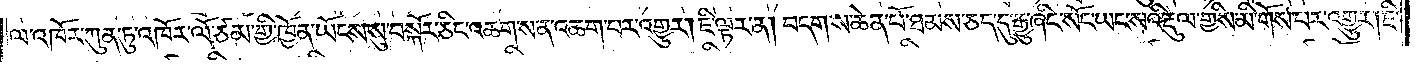ལ་འཁོར་ཀུན་ཏུ་འཁོར་ལོ་ཙམ་གྱི་ཁྱོན་ཡོངས་སུ་བསྐོར་ཅིང་འཆག་ས་ན་འཆག་པར་འགྱུར། ཇི་ལྟར་ན། བདག་ས་ཆེན་པོ་ཐམས་ཅད་དུ་རྒྱུ་ཞིང་སོང་ཡང་སའི་རྡུལ་གྱིས་མི་གོས་པར་འགྱུར། ཇི་
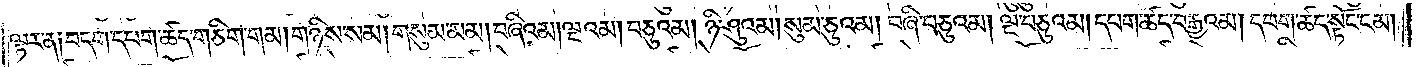ལྟར་ན༑ བདག་དཔག་ཚད་གཅིག་གམ། གཉིས་སམ། གསུམ་མམ། བཞིའམ། ལྔའམ། བཅུའམ། ཉི་ཤུའམ། སུམ་ཅུའམ། བཞི་བཅུའམ། ལྔ་བཅུའམ། དཔག་ཚད་བརྒྱའམ། དཔག་ཚད་སྟོང་ངམ།
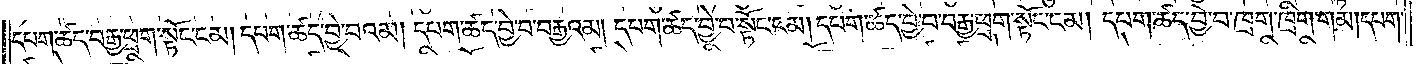དཔག་ཚད་བརྒྱ་ཕྲག་སྟོང་ངམ། དཔག་ཚད་བྱེ་བའམ། དཔག་ཚད་བྱེ་བ་བརྒྱའམ། དཔག་ཚད་བྱེ་བ་སྟོང་ངམ། དཔག་ཚད་བྱེ་བ་བརྒྱ་ཕྲག་སྟོང་ངམ། དཔག་ཚད་བྱེ་བ་ཁྲག་ཁྲིག་གམ། དཔག་
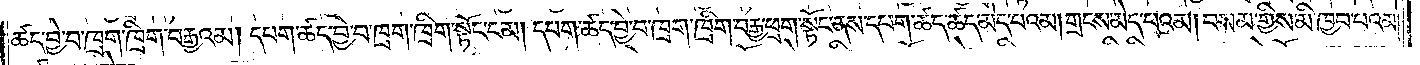ཚད་བྱེ་བ་ཁྲག་ཁྲིག་བརྒྱའམ། དཔག་ཚད་བྱེ་བ་ཁྲག་ཁྲིག་སྟོང་ངམ། དཔག་ཚད་བྱེ་བ་ཁྲག་ཁྲིག་བརྒྱ་ཕྲག་སྟོང་ནས་དཔག་ཚད་ཚད་མེད་པའམ། གྲངས་མེད་པའམ། བསམ་གྱིས་མི་ཁྱབ་པའམ།
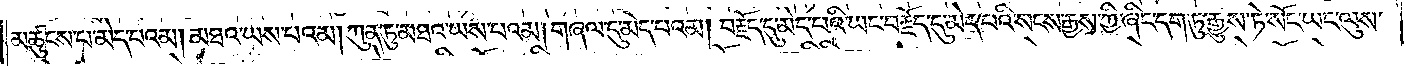མཚུངས་པ་མེད་པའམ། མཐའ་ཡས་པའམ། ཀུན་ཏུ་མཐའ་ཡས་པའམ། གཞལ་དུ་མེད་པའམ། བརྗོད་དུ་མེད་པའི་ཡང་བརྗོད་དུ་མེད་པའི་སངས་རྒྱས་ཀྱི་ཞིང་དག་ཏུ་རྒྱུས་ཏེ་སོང་ཡང་ལུས་
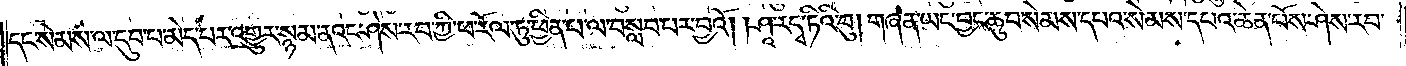དང་སེམས་ལ་དུབ་པ་མེད་པར་འགྱུར་སྙམ་ནའང་ཤེས་རབ་ཀྱི་ཕ་རོལ་ཏུ་ཕྱིན་པ་ལ་བསླབ་པར་བྱའོ། །ཤཱ་ར་དྭ་ཏིའི་བུ། གཞན་ཡང་བྱང་ཆུབ་སེམས་དཔའ་སེམས་དཔའ་ཆེན་པོས་ཤེས་རབ་
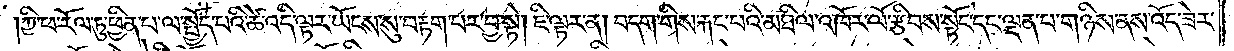ཀྱི་ཕ་རོལ་ཏུ་ཕྱིན་པ་ལ་སྤྱོད་པའི་ཚེ་འདི་ལྟར་ཡོངས་སུ་བརྟག་པར་བྱ་སྟེ། ཇི་ལྟར་ན། བདག་གིས་རྐང་པའི་མཐིལ་འཁོར་ལོ་རྩིབས་སྟོང་དང་ལྡན་པ་གཉིས་ནས་འོད་ཟེར་
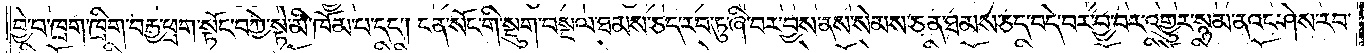བྱེ་བ་ཁྲག་ཁྲིག་བརྒྱ་ཕྲག་སྟོང་བཀྱེ་སྟེ་མི་ཁོམ་པ་དང༌། ངན་སོང་གི་སྡུག་བསྔལ་ཐམས་ཅད་རབ་ཏུ་ཞི་བར་བྱས་ནས་སེམས་ཅན་ཐམས་ཅད་བདེ་བར་བྱ་བར་འགྱུར་སྙམ་ནའང་ཤེས་རབ་
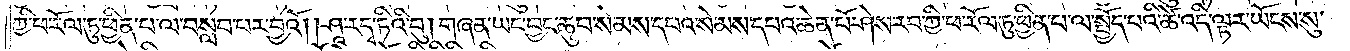ཀྱི་ཕ་རོལ་ཏུ་ཕྱིན་པ་ལ་བསླབ་པར་བྱའོ། །ཤཱ་ར་དྭ་ཏིའི་བུ། གཞན་ཡང་བྱང་ཆུབ་སེམས་དཔའ་སེམས་དཔའ་ཆེན་པོ་ཤེས་རབ་ཀྱི་ཕ་རོལ་ཏུ་ཕྱིན་པ་ལ་སྤྱོད་པའི་ཚེ་འདི་ལྟར་ཡོངས་སུ་
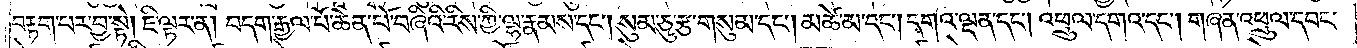བརྟག་པར་བྱ་སྟེ། ཇི་ལྟར་ན། བདག་རྒྱལ་པོ་ཆེན་པོ་བཞིའི་རིས་ཀྱི་ལྷ་རྣམས་དང༌། སུམ་ཅུ་རྩ་གསུམ་དང༌། མཚེ་མ་དང༌། དགའ་ལྡན་དང༌། འཕྲུལ་དགའ་དང༌། གཞན་འཕྲུལ་དབང་
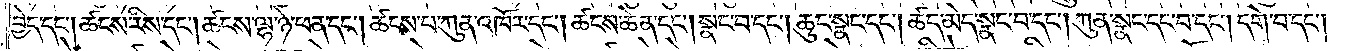བྱེད་དང༌། ཚངས་རིས་དང༌། ཚངས་ལྷ་ཉེ་ཕན་དང༌། ཚངས་པ་ཀུན་འཁོར་དང༌། ཚངས་ཆེན་དང༌། སྣང་བ་དང༌། ཆུང་སྣང་དང༌། ཚད་མེད་སྣང་བ་དང༌། ཀུན་སྣང་དང་བ་དང༌། དགེ་བ་དང༌།
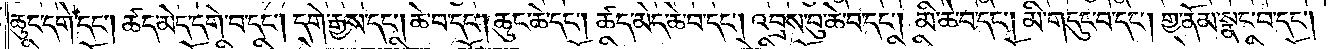ཆུང་དགེ་དང༌། ཚད་མེད་དགེ་བ་དང༌། དགེ་རྒྱས་དང༌། ཆེ་བ་དང༌། ཆུང་ཆེ་དང༌། ཚད་མེད་ཆེ་བ་དང༌། འབྲས་བུ་ཆེ་བ་དང༌། མི་ཆེ་བ་དང༌། མི་གདུང་བ་དང༌། གྱ་ནོམ་སྣང་བ་དང༌།
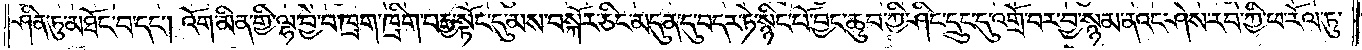ཤིན་ཏུ་མཐོང་བ་དང༌། འོག་མིན་གྱི་ལྷ་བྱེ་བ་ཁྲག་ཁྲིག་བརྒྱ་སྟོང་དུ་མས་བསྐོར་ཅིང་མདུན་དུ་བདར་ཏེ་སྙིང་པོ་བྱང་ཆུབ་ཀྱི་ཤིང་དྲུང་དུ་འགྲོ་བར་བྱ་སྙམ་ནའང་ཤེས་རབ་ཀྱི་ཕ་རོལ་ཏུ་
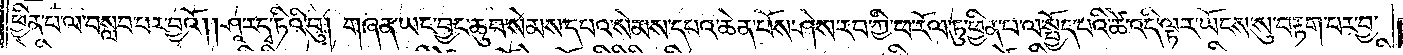ཕྱིན་པ་ལ་བསླབ་པར་བྱའོ། །ཤཱ་ར་དྭ་ཏིའི་བུ། གཞན་ཡང་བྱང་ཆུབ་སེམས་དཔའ་སེམས་དཔའ་ཆེན་པོས་ཤེས་རབ་ཀྱི་ཕ་རོལ་ཏུ་ཕྱིན་པ་ལ་སྤྱོད་པའི་ཚེ་འདི་ལྟར་ཡོངས་སུ་བརྟག་པར་བྱ་
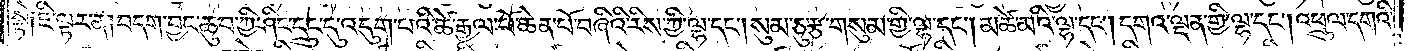སྟེ༑ ཇི་ལྟར་ན། བདག་བྱང་ཆུབ་ཀྱི་ཤིང་དྲུང་དུ་འདུག་པའི་ཚེ་རྒྱལ་པོ་ཆེན་པོ་བཞིའི་རིས་ཀྱི་ལྷ་དང༌། སུམ་ཅུ་རྩ་གསུམ་གྱི་ལྷ་དང༌། མཚེ་མའི་ལྷ་དང༌། དགའ་ལྡན་གྱི་ལྷ་དང༌། འཕྲུལ་དགའི་
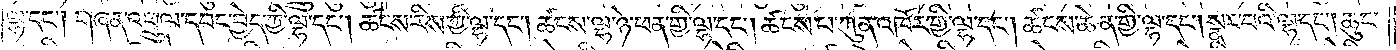ལྷ་དང༌། གཞན་འཕྲུལ་དབང་བྱེད་ཀྱི་ལྷ་དང༌། ཚངས་རིས་ཀྱི་ལྷ་དང༌། ཚངས་ལྷ་ཉེ་ཕན་གྱི་ལྷ་དང༌། ཚངས་པ་ཀུན་འཁོར་གྱི་ལྷ་དང༌། ཚངས་ཆེན་གྱི་ལྷ་དང༌། སྣང་བའི་ལྷ་དང༌། ཆུང་
